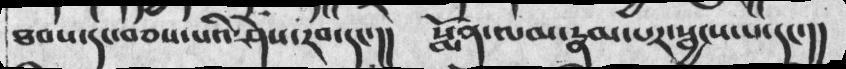ཐབས་དང་བཅས་པའི་ཤེས་རབ་དང་།། སྨོན་ལམ་རྣམ་པར་སྦྱངས་པ་དང་།།
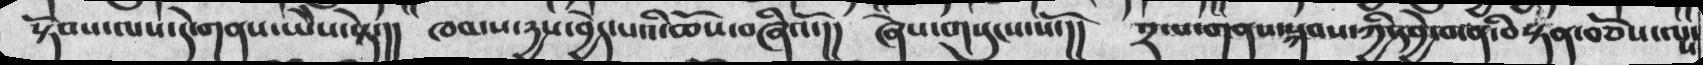སྟོབས་ལས་དེ་གནས་ཡེེས་སྟེ་།།  ཁམས་དྱས་བྱེད་པའི་ཆོས་བཞིའོ་།།  ཞེས་གསུངས་སོ་།།  ༢་པ་གནས་སྐབས་ཀྱི་དབྱེ་བ་ནི་བསྟན་བཅོས་ལྤ་
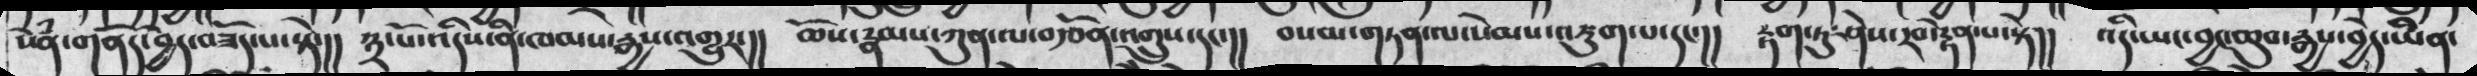སེཾན་གནོད་བྱེད་བཟོད་པ་སྟེ་།། ༣་པོ་འདིས་ནི་ཁམས་རྒྱས་འགྱུར་།། ཆོས་རྣམས་ཀུན་ལ་བརྩོན་འགྲུས་དང་།། བསམ་གཏན་ལ་སེམས་འཇུག་པ་དང་།། རྟག་ཏུ་ཤེས་རབ་རྟེན་པ་སྟེ།། འདི་ཡང་བྱང་ཆུབ་རྒྱས་བྱེད་ཡིན་
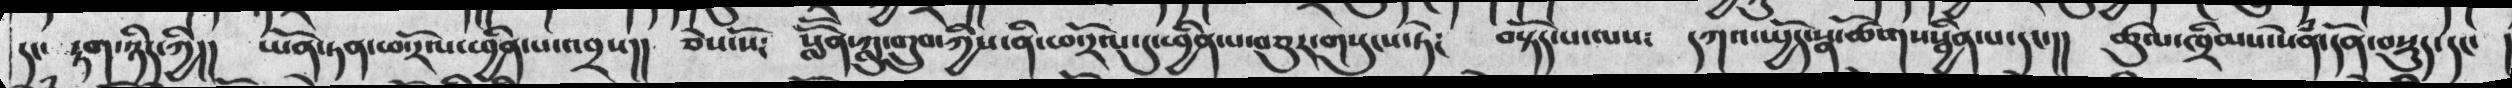དང་ རྟག་ཉིད་ཀྱི།། ཡོན་ཏན་ཕ་རོལ་ཕྱིན་པ་འབྲས།། ཅེས་སོ༴ སླཽན་ཀླུ་གྲུབ་ཀྱིས་ནི་ཕ་རོལ་དུ་ཕྱིན་པ་བཅུར་གསུངས་ཏེ༴  བསྟོད་པ་ལས༴ དཀའ་སྤྱོད་སྣ་ཚོགས་སྦྱིན་པ་དང་།། ཚུལ་ཁྲིམས་སེཾན་དོན་བསྡུད་དང་
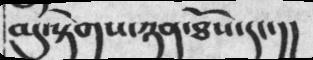མུ་སྟེགས་ཉན་ཐོས་དང་།།
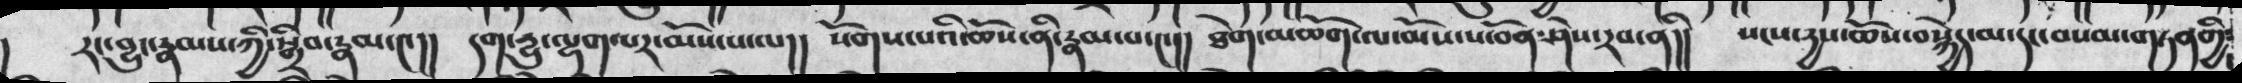། རང་བྱུང་རྣམས་ཀྱི་སྒྲིབ་རྣམ་༤།།  དག་རྱུ་ལྷག་པར་མོས་པ་ལ།།  སོགས་པའི་ཆོས་ནི་རྣམ་པ་་༤།། ཐེག་མཆོག་ལ་མོས་ས་བོན་ཤེས་རབ་ནི།། སངས་དྱས་ཆོས་བསྐྱེད་མ་དང་བསམ་གཏན་གྱི༴
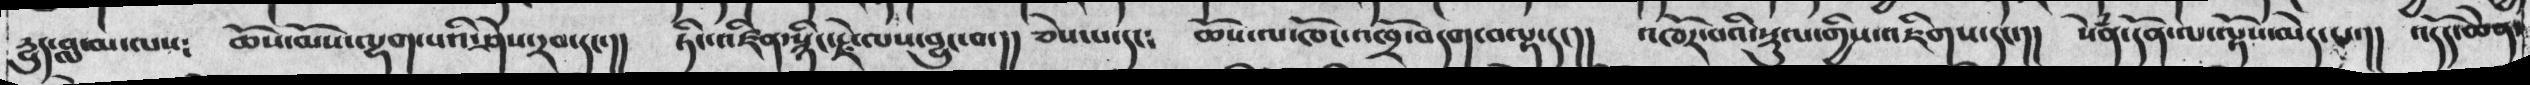རྱུད་བླ་མ་ལས༴  ཆོས་མོས་ལྷག་པའི་ཤེས་རབ་དང་།།  ཏིང་འཛིན་སྙིང་རྗེ་ལས་བྱུང་བ་།།  ཅེས་པ་དང༴  ཆོས་ལ་ཁོང་འཁྲོ་བདག་བལྟ་དང་།།  འཁོར་བའི་སྡུལ་གྱིས་འཇིགས་དང་།།  སེཾན་དོན་ལ་ལྟོས་མེད་པ་།།  འདོད་ཆེན་
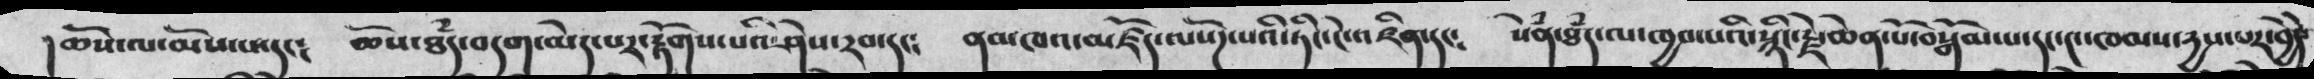།ཆོས་ལ་མོས་པ་དང༴  ཆོས་ཐཾད་བདག་མེད་པར་རྟོགས་པའི་ཤེས་རབ་དང༴  ནམཁའ་མཛོད་ལསོཌ་པའི་ཏིང་ངེ་འཛིན་དང༴  སེཾན་ཐཾད་ལ་ཁྱབ་པའི་སྙིང་རྗེ་ཆེན་པོ་བསྒོམ་པ་དང་༤་ཁམས་རྱས་པར་བྱེད་
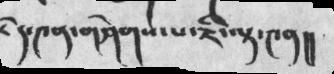དེ་༤ན་གཤེགས་པ་ཇི་ལྟ་༤ན།།
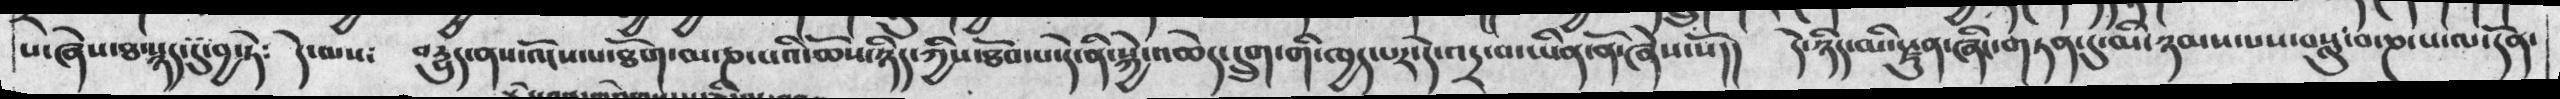པ་ཞེས་ཐ་སྙད་དུ་བྱ་ཏེ༴  དེ་ལས༴  བརྱུད་ནས་འོངས་པ་ཐོག་མ་ཎ་པའི་ཆོས་ཉིད་ཀྱིས་ཐོབ་པ་དེ་ནི་སྐྱེ་འཆེད་དྲུག་གི་ཁྱད་པར་དེ་འདྲ་བ་ཡིན་ནོ་ཞེས་སོ།། དེ་ཉིད་མི་སྫུན་ཞིང་གཏན་དུ་མི་ཉམས་པས་བསླུ་བ་ཎ་པ་ལ་དོན་
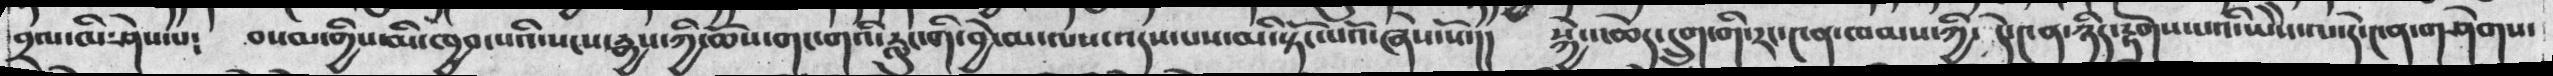བྲལ་མི་ཤེས་པ༴ བསམ་གྱིས་མི་ཁྱབ་པའི་སངས་རྒྱས་ཀྱི་ཆོས་གང་གའི་རླུང་གི་བྱེ་མ་ལས་འདས་པས་མི་སྟོང་པའོ་ཞེས་སོ་།།  སྐྱེ་མཆེད་དྲུག་གི་རང་༤ན་ཁམས་ཀྱི་དེ་༤ན་ཉིད་རྟོགས་པའི་ཡཻས་ལ་དེ་༤ན་གཤེགས་
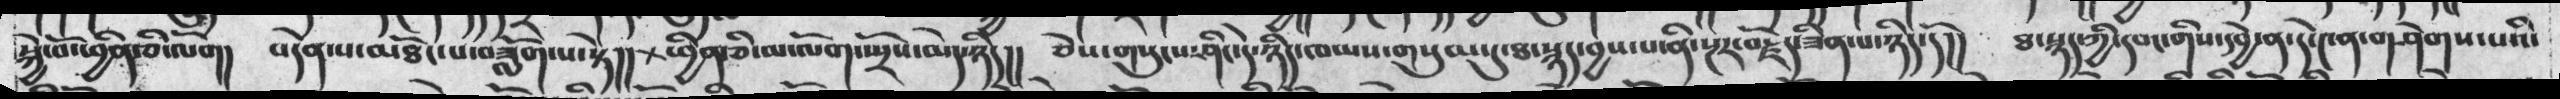སྐྱེ་བོ་ཕྱིན་ཅི་ལོག། བདེན་པ་མཐོང་པ་ཟློག་པ་སྟེ།། ཕྱིན་ཅི་མ་ལོག་སྤྲོས་མེད་ཉིད།། ཅེས་གསུངས་ཤིང་དེ་ཉིད་ཁམས་གསུམ་དུ་ཐ་སྙད་བྱས་པ་ནི་སྔར་བརྗོད་ཟིན་པ་ཉིད་དོ།། ཐ་སྙད་ཀྱི་དབང་གིས་དབྱེ་ན་དེ་༤ན་གཤེགས་པའི་
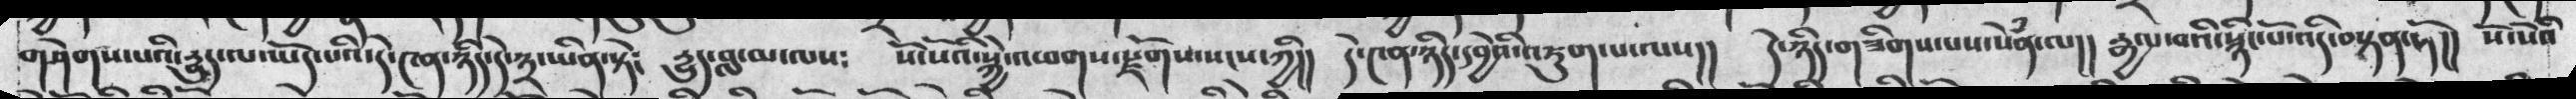གཤེགས་པའི་རྱུད་ལ་ཡོད་པའི་དེ་༤ན་ཉིད་དེ་༣་ཡིན་སྟེ༴ རྱུད་བླ་མ་ལས༴ སོ་སོའི་སྐྱེ་འཕགས་སྫོགས་སངས་ཀྱི།། དེ་༤ན་ཉིད་དབྱེའི་འཇུག་པ་ལས།། དེ་ཉིད་གཟིགས་པས་སེཾན་ལ།། རྒྱལ་བའི་སྙིང་པོ་འདི་བསྟན་ཏོ།། སོ་སོའི
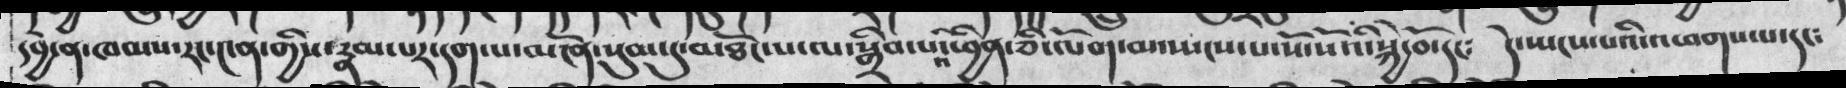དབྱེ་ན་ཁམས་རང་༤ན་གྱིས་རྣམ་པར་དག་པ་མངོན་སུམ་དུ་མཐོང་པ་ལ་སྒྲིབ་པ་ཕྱིན་ཅི་ལོག་མ་སྤངས་པ་སོ་སོའི་སྐྱེ་བོ་དང༴  དེ་སྤངས་པའི་འཕགས་པ་དང༴
